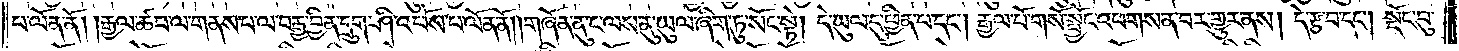པ་ལོན་ནོ། །རྒྱལ་ཚབ་ལ་གནས་པ་ལ་བརྒྱ་བྱིན་དྲུག་ཤི་འཕོས་པ་ལོན་ནོ། །གཞོན་ནུ་ང་ལས་ནུ་ཡུལ་ཞིག་ཏུ་སོང་སྟེ། དེ་ཡུལ་དུ་ཕྱིན་པ་དང༌། རྒྱལ་པོ་གསོ་སྦྱོང་འཕགས་ན་བར་གྱུར་ནས། དེ་རྩ་བ་དང༌། སྡོང་བུ་
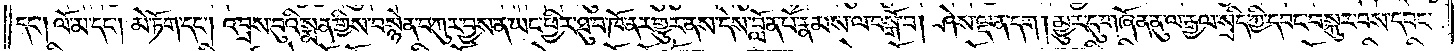དང་༑ ལོ་མ་དང༌། མེ་ཏོག་དང༌། འབྲས་བུའི་སྨན་གྱིས་བསྙེན་བཀུར་བྱས་ན་ཡང་ཕྱིར་ཐུ་བ་ཁོ་ནར་གྱུར་ནས་དེས་བློན་པོ་རྣམས་ལ་བསྒོ་བ། ཤེས་ལྡན་དག། མྱུར་དུ་གཞོན་ནུ་ལ་རྒྱལ་སྲིད་ཀྱི་དབང་བསྐུར་བས་དབང་
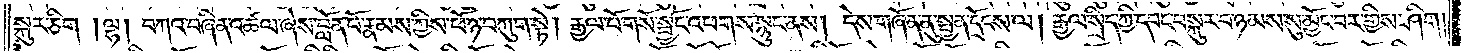སྐུར་ཅིག། །ལྷ། བཀའ་བཞིན་འཚལ་ཞེས་བློན་པོ་རྣམས་ཀྱིས་ཕོ་ཉ་བཀུག་སྟེ། རྒྱལ་པོ་གསོ་སྦྱོང་འཕགས་སྙུང་ནས། དེས་གཞོན་ནུ་སྤྱན་དྲོངས་ལ། རྒྱལ་སྲིད་ཀྱི་དབང་བསྐུར་བ་ཉམས་སུ་མྱོང་བར་གྱིས་ཤིག།
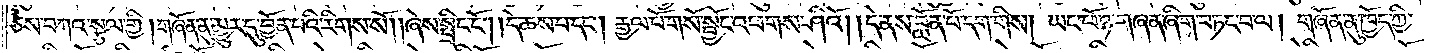ཅེས་བཀའ་སྩལ་གྱི། གཞོན་ནུ་མྱུར་དུ་བྱོན་པའི་རིགས་སོ། །ཞེས་སྤྲིང་ངོ༌། །དེ་ཆས་པ་དང༌། རྒྱལ་པོ་གསོ་སྦྱོང་འཕགས་ཤིའོ། །དེ་ནས་བློན་པོ་དག་གིས། ཡང་ཕོ་ཉ་གཞན་ཞིག་བཏང་བ་ལ། གཞོན་ནུ་ཁྱོད་ཀྱི་
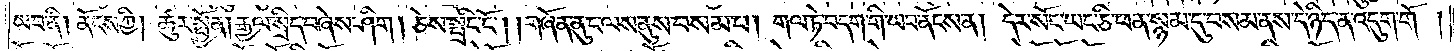ཡབ་ནི། ནོངས་ཀྱི། ཚུར་སྤྱོན། རྒྱལ་སྲིད་བཞེས་ཤིག། ཅེས་སྤྲིང་ངོ༌། །གཞོན་ནུ་ང་ལས་ནུས་བསམ་པ། གལ་ཏེ་བདག་གི་ཡབ་ནོངས་ན། དེར་སོང་ཡང་ཅི་ཕན་སྙམ་དུ་བསམ་ནས་དེ་ཉིད་ན་འདུག་གོ།
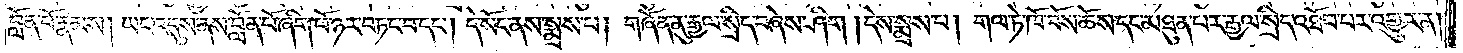བློན་པོ་རྣམས། ཡང་འདུས་ནས་བློན་པོ་ཞིག་ཕོ་ཉར་བཏང་བ་དང༌། དེ་སོང་ནས་སྨྲས་པ། གཞོན་ནུ་རྒྱལ་སྲིད་བཞེས་ཤིག། །དེས་སྨྲས་པ། གལ་ཏེ་ཁོ་བོས་ཆོས་དང་མཐུན་པར་རྒྱལ་སྲིད་འཐོབ་པར་འགྱུར་ན།
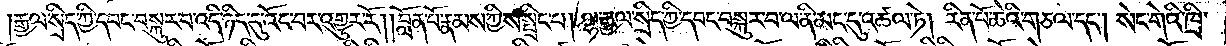རྒྱལ་སྲིད་ཀྱི་དབང་བསྐུར་བ་འདི་ཉིད་དུ་འོང་བར་འགྱུར་རོ། །བློན་པོ་རྣམས་ཀྱིས་སྤྲིང་པ། ལྷ་རྒྱལ་སྲིད་ཀྱི་དབང་བསྐུར་བ་ལ་ནི་མང་དུ་འཚལ་ཏེ། རིན་པོ་ཆེའི་གཅལ་དང༌། སེང་གེའི་ཁྲི་
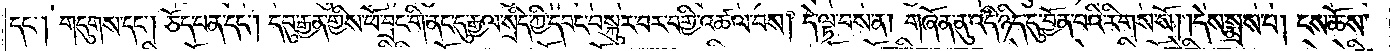དང༌། གདུགས་དང༌། ཅོད་པན་དང༌། དབུ་རྒྱན་གྱིས་ཕོ་བྲང་གི་ནང་དུ་རྒྱལ་སྲིད་ཀྱི་དབང་བསྐུར་བར་བགྱི་འཚལ་བས། དེ་ལྟ་བས་ན། གཞོན་ནུ་འདི་ཉིད་དུ་བྱོན་པའི་རིགས་སོ། །དེས་སྨྲས་པ། ངས་ཆོས་
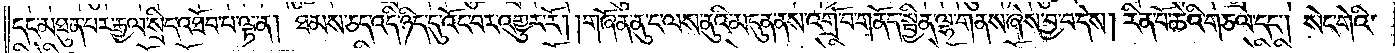དང་མཐུན་པར་རྒྱལ་སྲིད་འཐོབ་པ་ལྟ་ན། ཐམས་ཅད་འདི་ཉིད་དུ་འོང་བར་འགྱུར་རོ། །གཞོན་ནུ་ང་ལས་ནུའི་མདུན་ནས་འགྲོ་བ་གནོད་སྦྱིན་ལྷ་གནས་ཞེས་བྱ་བ་དེས། རིན་པོ་ཆེའི་གཅལ་དང༌། སེང་གེའི་
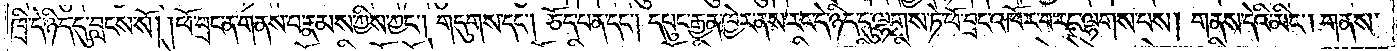ཁྲི་དེ་ཉིད་དུ་བླངས་སོ། །ཕོ་བྲང་ན་གནས་པ་རྣམས་ཀྱིས་ཀྱང༌། གདུགས་དང༌། ཅོད་པན་དང༌། དཔུང་རྒྱན་ཁྱེར་ནས་རང་དེ་ཉིད་དུ་ལྷགས་ཏེ་ཕོ་བྲང་འཁོར་བ་རང་ལྷགས་པས། གནས་དེའི་མིང༌། གནས་
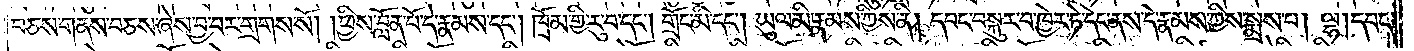བཅས་གནས་བཅས་ཞེས་བྱ་བར་གྲགས་སོ། །ཕྱིས་བློན་པོ་དེ་རྣམས་དང༌། ཁྲོམ་གྱི་རུ་བ་དང༌། གྲོང་མི་དང༌། ཡུལ་མི་རྣམས་ཀྱིས་ནི། དབང་བསྐུར་བ་ཁྱེར་ཏེ་དེང་ནས་དེ་རྣམས་ཀྱིས་སྨྲས་པ། ལྷ། དབང་
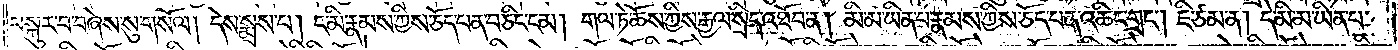བསྐུར་བ་བཞེས་སུ་གསོལ། དེས་སྨྲས་པ། ང་མི་རྣམས་ཀྱིས་ཅོད་པན་བཅིང་ངམ། གལ་ཏེ་ཆོས་ཀྱིས་རྒྱལ་སྲིད་འཐོབ་ན། མི་མ་ཡིན་པ་རྣམས་ཀྱིས་ཅོད་པན་འཆིང་གྲང༌། ཇི་ཙམ་ན། དེ་མི་མ་ཡིན་པ་
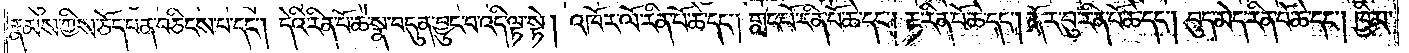རྣམས་ཀྱིས་ཅོད་པན་བཅིངས་པ་དང༌། དེའི་རིན་པོ་ཆེ་སྣ་བདུན་བྱུང་བ་འདི་ལྟ་སྟེ། འཁོར་ལོ་རིན་པོ་ཆེ་དང༌། གླང་པོ་རིན་པོ་ཆེ་དང༌། རྟ་རིན་པོ་ཆེ་དང༌། ནོར་བུ་རིན་པོ་ཆེ་དང༌། བུད་མེད་རིན་པོ་ཆེ་དང༌། ཁྱིམ་
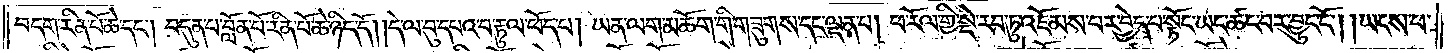བདག་རིན་པོ་ཆེ་དང༌། བདུན་པ་བློན་པོ་རིན་པོ་ཆེ་ཉིད་དོ། །དེ་ལ་བུ་དཔའ་བ་རྟུལ་ཕོད་པ། ཡན་ལག་མཆོག་གི་གཟུགས་དང་ལྡན་པ། ཕ་རོལ་གྱི་སྡེ་རབ་ཏུ་འཇོམས་པར་བྱེད་པ་སྟོང་ཡང་ཚང་བར་བྱུང་ངོ༌། །ཡངས་པ་
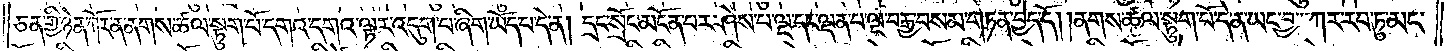ཅན་གྱི་ཉེན་ཀོར་ན་ནགས་ཚལ་སྟུག་པོ་དགའ་དགའ་ལྟར་འདུག་པ་ཞིག་ཡོད་པ་དེ་ན། དྲང་སྲོང་མངོན་པར་ཤེས་པ་ལྔ་དང་ལྡན་པ་ལྔ་བརྒྱ་བསམ་གཏན་བྱེད་དོ། །ནགས་ཚལ་སྟུག་པོ་དེ་ན་ཡང་བྱ་ཀར་རབ་ཏུ་མང་
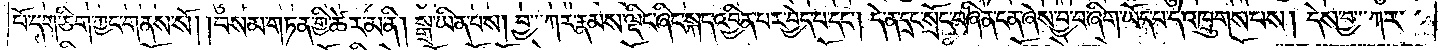པོ་དག་ཅིག་ཀྱང་གནས་སོ། །བསམ་གཏན་གྱི་ཚེར་མ་ནི། སྒྲ་ཡིན་པས། བྱ་ཀར་རྣམས་ལྡིང་ཞིང་སྐད་འབྱིན་པར་བྱེད་པ་དང༌། དེ་ན་དྲང་སྲོང་བཞིན་ངན་ཞེས་བྱ་བ་ཞིག་ཡོད་པ་དེ་འཁྲུགས་པས། དེས་བྱ་ཀར་
